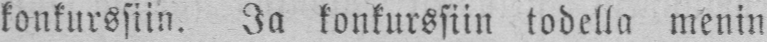konkurssiin. Ja konkurssiin todella menin
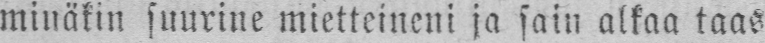minäkin suurine mietteineni ja sain alkaa taas
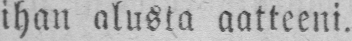ihan alusta aatteeni.
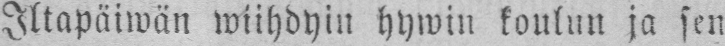Iltapäiwän wiihdyin hywin koulun ja sen
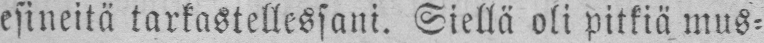esineitä tarkastellessani. Siellä oli pitkiä mus-
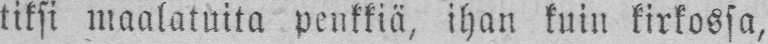tiksi maalatutta penkkiä, ihan kuin kirkossa,
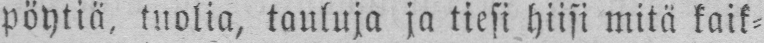pöytiä, tuolia, tauluja ja tiesi hiisi mitä kaik-
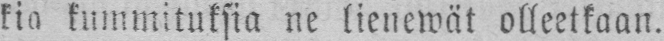kia kummituksia ne lienewät olleetkaan.
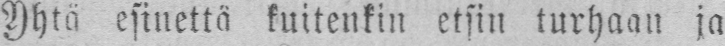Yhtä esinettä kuitenkin etsin turhaan ja
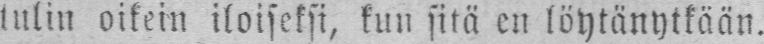tulin oikein iloiseksi, kun sitä en löytänytkään.
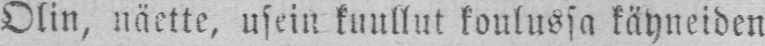Olin, näette, usein kuullut koulussa käyneiden
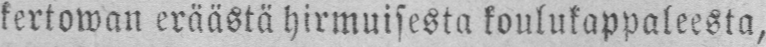kertowan eräästä hirmuisesta koulukappaleesta,
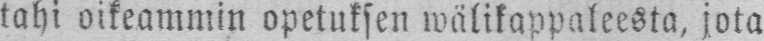tahi oikeammin opetuksen wälikappaleesta, jota
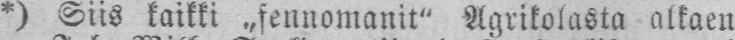*) Siis kaikki „fennomanit" Agrikolasta alkaen
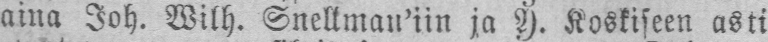aina Joh. Wilh. Snellman'iin ja Y. Koskiseen asti
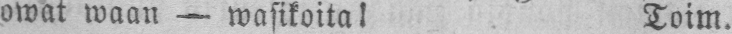owat waan — wasikoita ! Toim.
